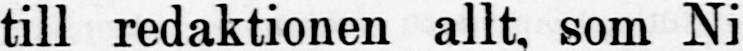till redaktionen allt, som Ni
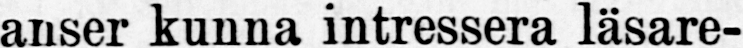anser kunna intressera läsare-
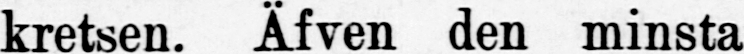kretsen. Öfven den minsta
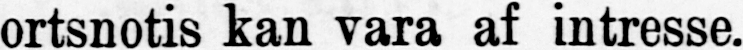ortsnotis kan vara af intresse.
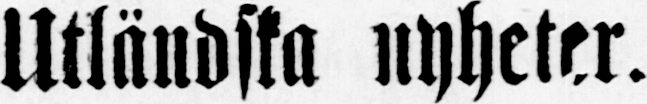Utländska nyheter.
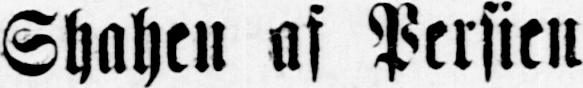Shahen af Persien
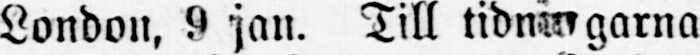London, 9 jan. Till tidningarna
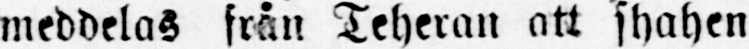meddelas från Teheran att shahen
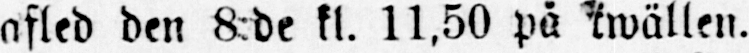afled den 8:de kl. 11,50 på kwällen.
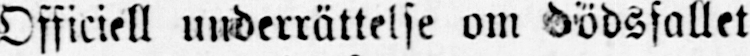Officiell underrättelse om dödsfallet
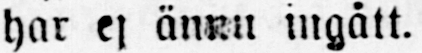har ej ännu ingått.
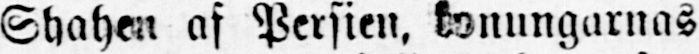Shahen af Persien, konungarnas
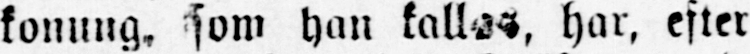konung, som han kallas, har, efter
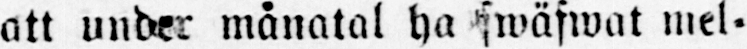att under månatal ha swäfwat mel-
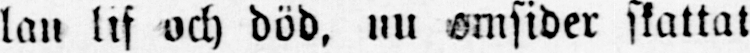lan lif och död, nu omsider skattat
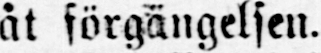åt förgängelsen.
